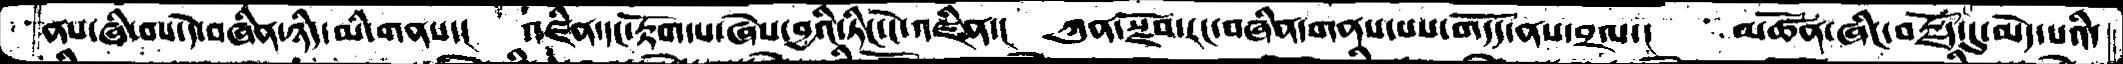ནས་ཞི་བས་དེ་བཞིན་ཉིད་མི་གནས་།  འཛིན་དང་རྟོག་པ་ཞེས་བྱའི་ཏིང་ངེ་འཛིན་།  ཀུན་སྫོབ་རང་བཞིན་གནས་པས་གདོད་ནས་བྲལ་།  མཚོན་ཞིང་བརྗོད་དུ་མེད་པའི་
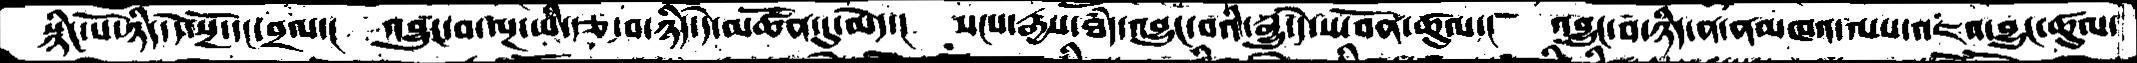སྙིང་པོ་ཉིད་དེ་སྔོ་དང་བྲལ་།  འབྱུང་བ་ལྔ་ཡི་རྩ་བ་ཉིད་དེ་མཚོན་དུ་མེད་།  སངས་རྒྱས་ཐཾད་འབྱུང་བའི་སྒྱུ་དེ་ས་བོན་ཚུལ་།  འབྱུང་བ་ཉིད་ན་ནམཁའ་ལས་འཇའ་བྱུང་ཚུལ་
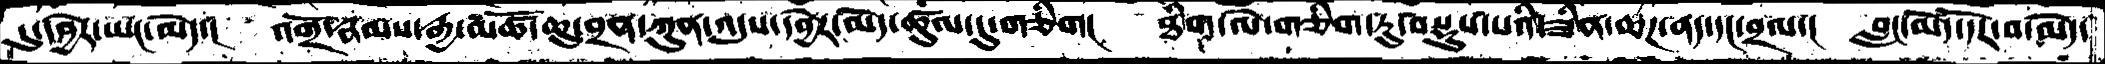དུ་དབྱེར་ཡང་མེད་།  འགྲོ་རྣམས་རྒྱ་མཚོ་ཆུ་བྲན་ཀུན་འདུས་དབྱེར་མེད་ཚུལ་དུ་གཅིག།  ཐིག་ལེ་གཅིག་ཏུ་བསྡུས་པའི་ཟིན་ཆཌ་ནད་དང་བྲལ་།  བླང་མེད་དོར་བ་མེད་
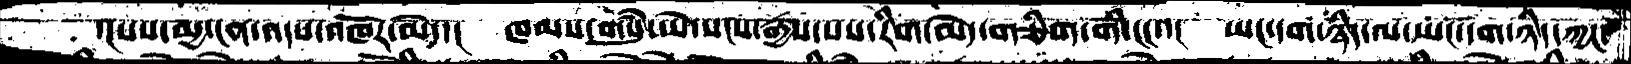་།པས་མྱ་ངན་འདས་འཁོར་མེད་།  ཁམས་གསུཾ་ཡེ་སངས་རྒྱས་པས་རིག་མེད་གཅིག་གི་ངང་་།  ཡང་དག་ཉིད་ལ་ཡང་དག་ཉིད་ཀྱང་
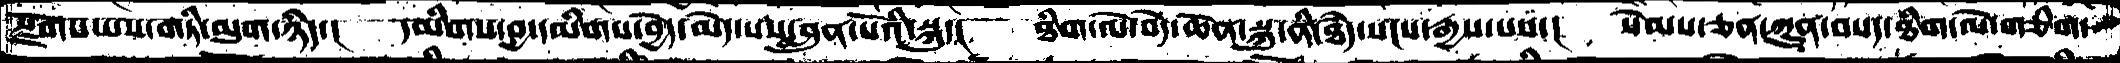སྫོགས་པས་གཏི་མུག་ཉིད་།  དམིགས་བྱ་དམིགས་བྱེད་མེད་པས་བླུན་པོའི་སྐུ་།  ཐིག་ལེ་བདེ་ཆེན་སྐུ་ནི་ཐཾད་སངས་རྒྱས་པས་།  སེམས་ཅན་ཀུན་བསད་ཐིག་ལེ་གཅིག་
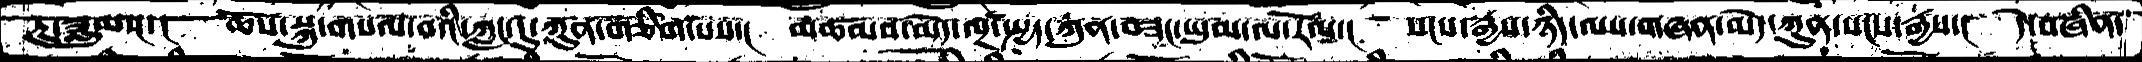ཏུ་་ཟླུམས་།  ཆོས་སྐུ་གསལ་བའི་ཀླང་དུ་ཀུན་གཅིག་པས་།  མཚམས་མེད་ལྔ་སྤྱད་ཀུན་བཟང་ཡུམ་ལ་རོལ་།  སངས་རྒྱས་ཉིད་ལས་གཞན་མེད་ཀུན་སངས་རྒྱས་། དེ་བཞིན་
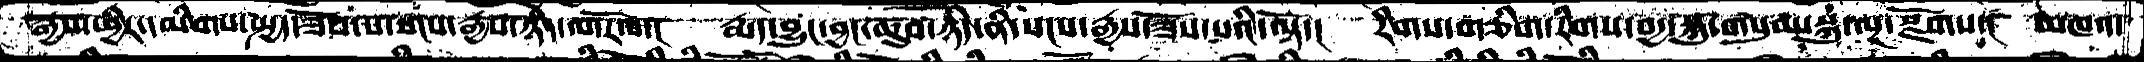རྒྱས་ཕྱིར་དམིགས་སྤྱད་ཟོས་པ་སངས་རྒྱས་ཉིད་ལ་རོལ་།  རྨད་བྱུང་བྱང་ཆུབ་ཉིད་ནི་སངས་རྒྱས་ཟོས་པའི་ལྟོ་།  རིགས་གཅིག་རིགས་བདྱ་སྐུ་གསུམ་སྐུ་ལྔ་སྫོགས་།  མཁའ་
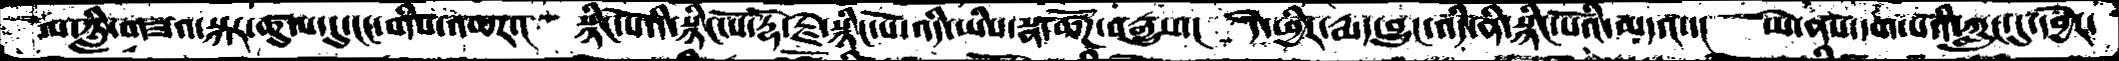ལ་ཉླི་གཟའ་སྐར་ཚུལ་དུ་ངང་གིས་འཆར་།  སྙིང་པོའི་སྙིང་པོ་རྡོ་རྗེ་སྙིང་པོ་འདི་ཡིས་སྣ་ཚོཌ་བརྒྱུས་།  དེ་ཕྱིར་རྨད་བྱུང་འདི་ནི་སྙིང་པོའི་མདའ་་།  ཡེ་ནས་དག་པའི་ཀླུང་དུ་དབྱེར་
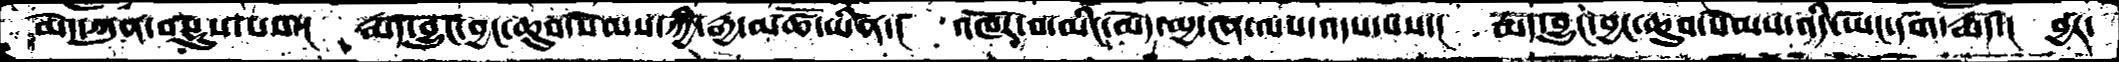མེད་ཀུན་བསྡུས་པས་།  རྨད་བྱུང་བྱང་ཆུབ་སེམས་ཀྱི་རྒྱ་མཚོ་ཡིན་།  འཁོར་བ་མིང་མེད་མྱ་ངན་ལས་འདས་པས་།  རྨད་བྱུང་བྱང་ཆུབ་སེམས་འདི་ཡང་དག་རྨད་།  བྱར་
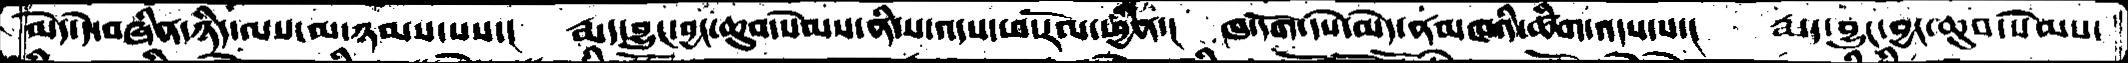མེད་དེ་བཞིན་ཉིད་ལས་མ་ཉམས་པས་།   རྨད་བྱུང་བྱང་ཆུབ་སེམས་ནི་ས་འདས་ཕ་རོལ་ཕྱིན་།  ཁ་དོག་དཔེ་མེད་ནམཁའི་ཚིག་འདས་པ་།  རྨད་བྱུང་བྱང་ཆུབ་སེམས་
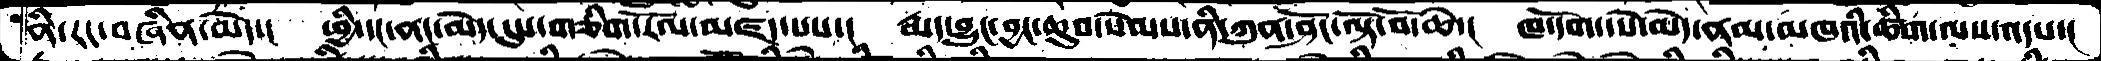ནི་ེརང་བཞིན་མེད་།  ཕྱི་དང་ནང་མེད་དུས་གཅིག་རོལ་མཛད་པས་།   རྨད་བྱུང་བྱང་ཆུབ་སེམས་ནི་ཀུན་ཤོང་ལྟོ་བོ་ཆེ་།  ཁ་དོག་དཔེ་མེད་ནམ་མཁའི་ཚིག་ལས་འདས་།
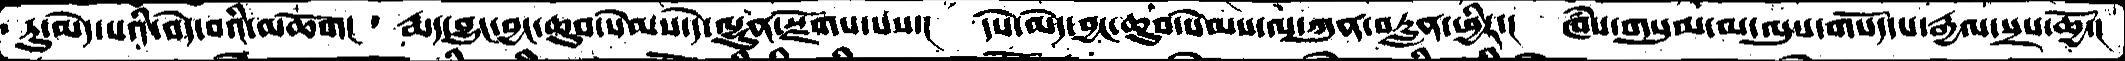ཏུ་མེད་པའི་བདེ་བའི་མཆོག།   རྨད་བྱུང་བྱང་ཆུབ་སེམས་དེ་ལྷུན་སྫོགས་པས་།  དཔེ་མེད་བྱང་ཆུབ་སེམས་ལ་ཀུན་བརླན་ཕྱིར་།  ཁཾས་གསུམ་མ་ལུས་གསོད་པ་རྒྱལ་སྲས་ཆྱོ་།
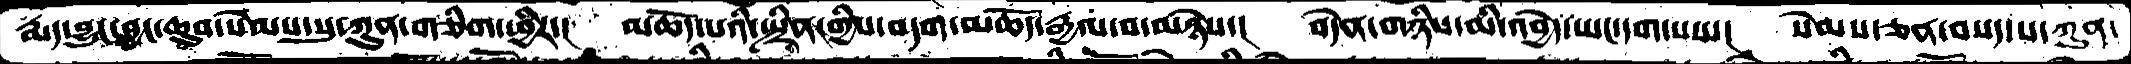རྨད་བྱུང་བྱང་ཆུབ་སེམས་སུ་ཀུན་གཅིག་ཕྱིར་།  མཆོད་པའི་སྤྲིན་གྱིས་བདག་མཆོད་རྒྱལ་བ་མཉེས་།  བདེན་གཉིས་མི་འབྱེད་ཡང་དག་པས་།  སེམས་ཅན་བསད་པ་ཀུན་
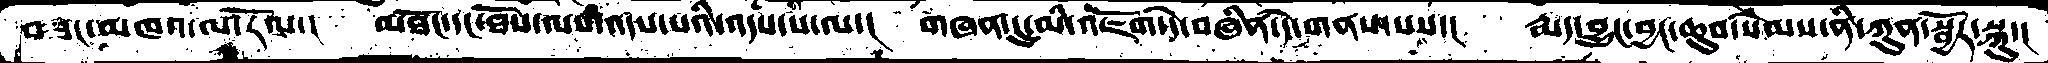བཟང་མཁའ་ལ་རོལ་།  མཐོང་དང་ཐོས་ལས་འདས་པའི་འདས་པ་ལ་།  གཞན་དུ་མི་འཇོག་དེ་བཞིན་དེ་གནས་པས་།  རྨད་བྱུང་བྱང་ཆུབ་སེམས་ནི་ཀུན་སྦྱོར་སྐུ་།
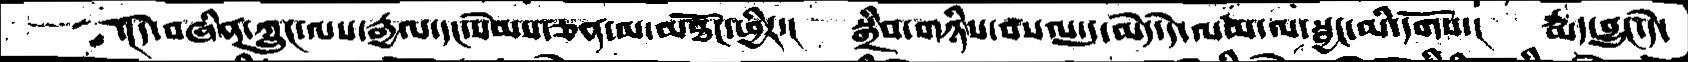་།དེ་བཞིན་ཀླུང་ལས་རྒྱལ་དང་སེམས་ཅན་མ་མཐོང་ཕྱིར་།  སྒྲིབ་གཉིས་བསལ་དུ་མེད་དེ་ལམ་ལ་སྦྱང་མི་དགོས་།  རྨད་བྱུང་དེ་
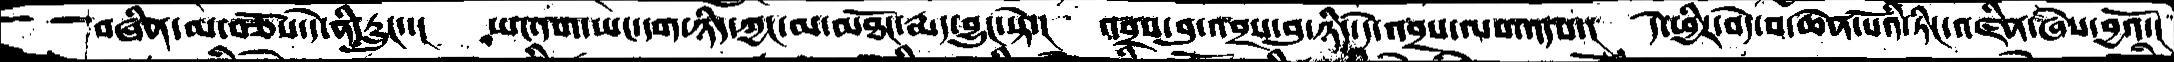བཞིན་མ་བཅོས་དེ་ནི་རླུང་་།  ཡང་དག་ཡང་དག་ཉིད་ཀྱང་མ་མཐོང་རྨད་བྱུང་སྟེ་།  འབྲས་བུ་འབྲས་བུ་ཉིད་དེ་འབྲས་ལས་འདས་།  དེ་ཕྱིར་བདེ་བ་ཆེན་པོའི་ཏིང་འཛིན་ཞེས་བྱའོ་།
